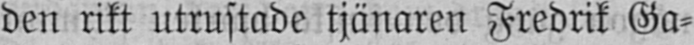den rikt utrustade tjänaren Fredrik Ga-
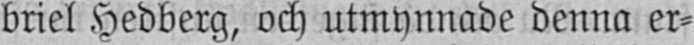briel Hedberg, och utmynnade denna er-
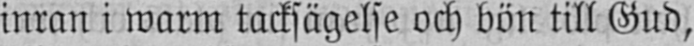inran i warm tacksägelse och bön till Gud,
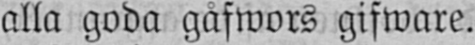alla goda gåfwors gifware.
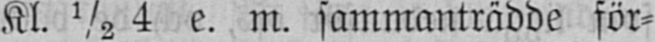Kl. ½ 4 e. m. sammanträdde för-
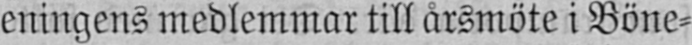eningens medlemmar till årsmöte i Böne-
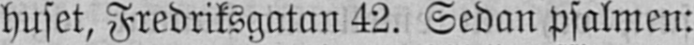huset, Fredriksgatan 42. Sedan psalmen:
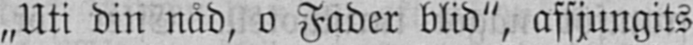„Uti din nåd, o Fader blid", afsjungits
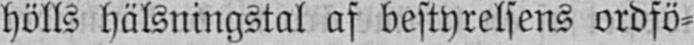hölls hälsningstal af bestyrelsens ordfö-
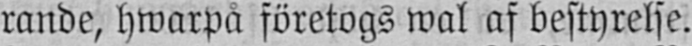rande, hwarpå företogs wal af bestyrelse.
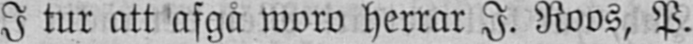I tur att afgå woro herrar I. Roos, P.
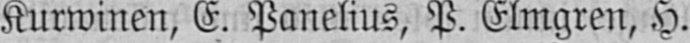Kurwinen, E. Panelius, P. Elmgren, H.
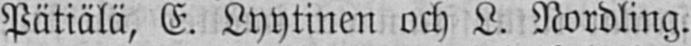Pätiälä, E. Lyytinen och L. Nordling.
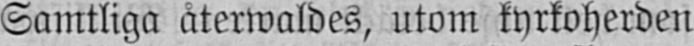Samtliga återwaldes, utom kyrkoherden
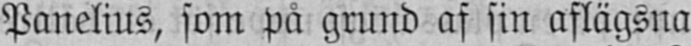Panelius, som på grund af sin aflägsna
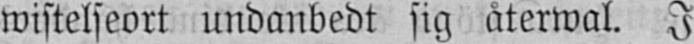wistelseort undanbedt sig återwal. I
